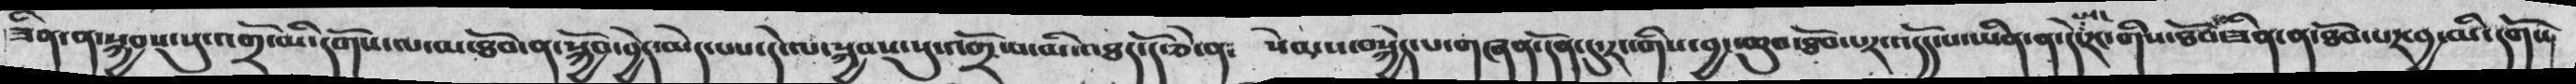ཟིན་ན་སྐྱབས་སུ་འགྲོ་མི་དགོས་ལ་མ་ཐོབ་ན་སྐྱོབ་བྱེད་མེད་པས་དེ་ལ་སྐྱབས་སུ་འགྲོ་བམི་འཐད་དོ་ཅེ་ན༴  སེམས་བསྐྱེད་པ་གཞན་དོན་དུ་རང་གིས་བྱང་ཆུབ་ཐོབ་པར་འདོད་པ་ཡིན་ན་དེ་ཡང་རང་གིས་ཐོབ་ཟིན་ན་ཐོབ་པར་བྱ་མི་དགོས
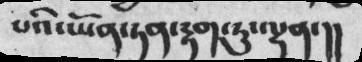པའི་ཡོན་ཏན་རྟག་ཏུ་ལྷན་།།
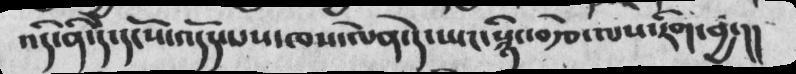འདི་ནི་དེ་དང་པོ་འདོད་པས་ཁས་ལེན་དེ་ཡང་སྙིང་བརྩེ་ལས་དགེ་བྱང།།
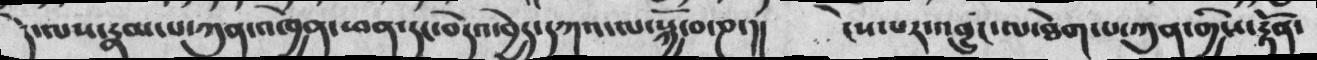དེ་ལས་རྣམས་པ་ཀུན་འཁྱེན་ཕན་དང་བདེའ་བྱེད་དཀའ་ལ་སྐྱོ་བ་ཎ་།།  ངེས་པར་འབྱུང་ལ་ཐེག་པ་ཀུན་གྱིས་རྟོན་
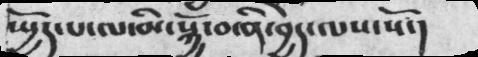སྤྱོད་པ་ལ་མི་སྐྱེ་བ་ནི་བྱེད་ལས་སོ་།
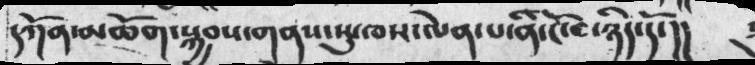དཀོན་མཆོག་སྐྱབས་གནས་སུ་ཁས་ལེན་པ་ནི་ངོ་བོ་ཉིད་དོ་།།
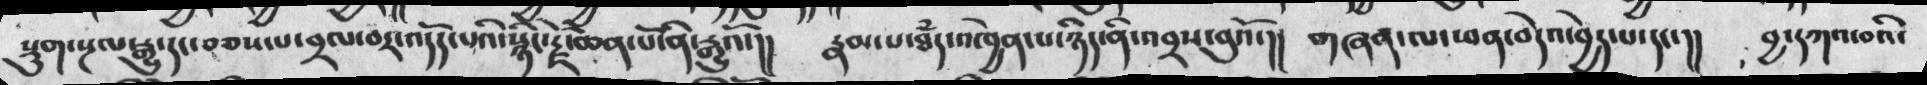སྡུག་སྔལ་རྒྱུ་དང་བཅས་པ་བྲལ་བར་འདོད་པའི་སྙིང་རྗེ་ཆེན་པོ་ནི་རྒྱུའོ་།།  རྣམ་པ་ཐཾད་འཁྱེན་པ་ཉིད་ནི་འབྲས་བུའོ་།།  གཞན་ལ་ཕན་བདེའ་བྱེད་པ་དང་།།   བྱ་དཀའ་བའི་
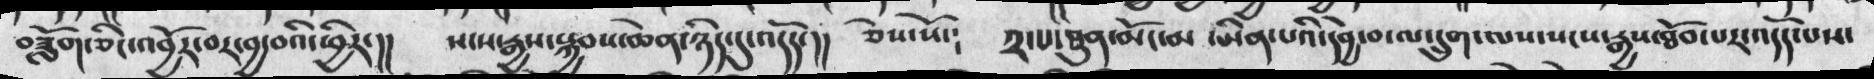བཟློག་ཅིང་འབྱོར་བར་བྱ་བའི་ཕྱིར་།།   སངས་རྒྱས་སྐྱབས་ཆེན་ཉིད་དུ་འདོད་།།   ཅེས་སོ༴     ༢་པ་ཐུན་མོང་མ་ཡིན་པའི་དབྱེ་བ་ལ་དྲུག་ལས་སངས་རྒྱས་ཐོབ་པར་འདོད་པས་
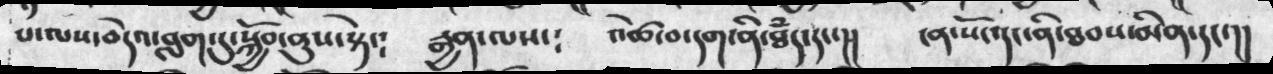པ་ལས་བདེའ་བླག་དུ་སྐྱོབ་ནུས་སྟེ་༴   རྒྱན་ལས་༴    འཚེ་བ་དག་ནི་ཐཾད་དང་།།    ངན་སོང་དང་ནི་ཐབས་མིན་དང་།།
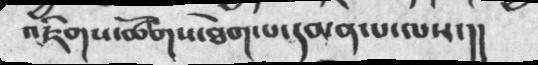འཇིགས་ཚོགས་ཐེག་པ་དམན་པ་ལས་།།
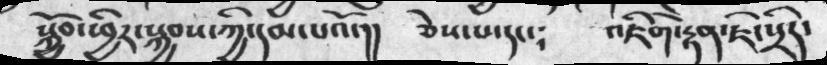སྐྱོབ་ཕྱིར་སྐྱབས་ཀྱི་དམ་པའོ་།།   ཅེས་པ་དང་   འཇིག་རྟེན་ཇི་སྲིད་
